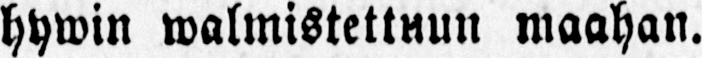hywin walmistettuun maahan.
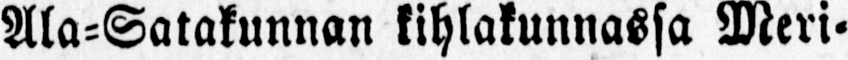Ala-Satakunnan kihlakunnassa Meri-
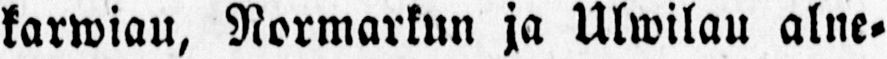karwiau, Normarkun ja Ulwilau alne-
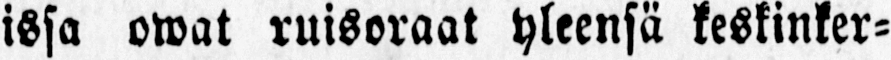issa owat ruisoraat yleensä keskinker-
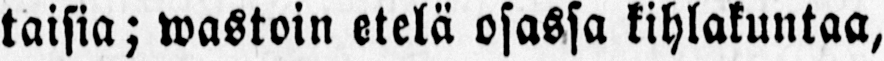taisia; wastoin etelä osassa kihlakuntaa,
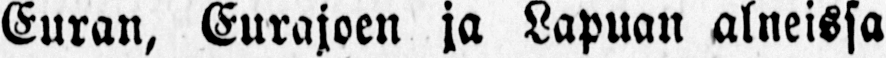Euran, Eurajoen ja Lapuan alueissa
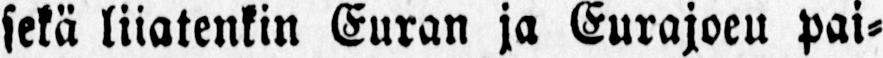sekä liiatenkin Euran ja Eurajoen pai-
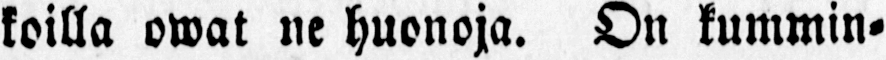koilla owat ne huonoja. On kummin-
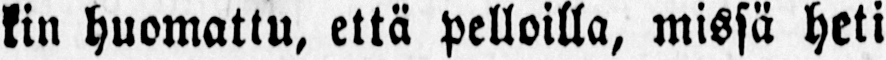kin huomattu, että pelloilla, missä heti
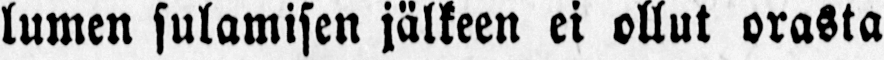lumen sulamisen jälkeen ei ollut orasta
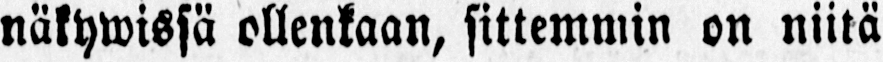näkywissä ollenkaan, sittemmin on niitä
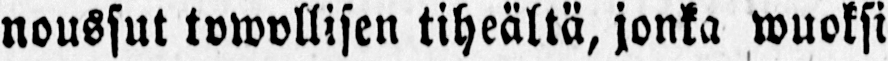noussut tawallisen tiheällä, jonka wuoksi
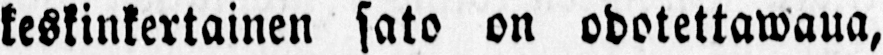keskinkertainen sato on odotettawaua,
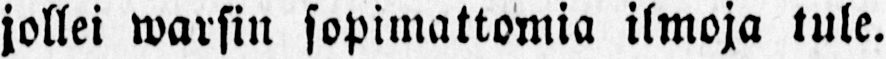jollei warsin sopimattomia ilmoja tule.
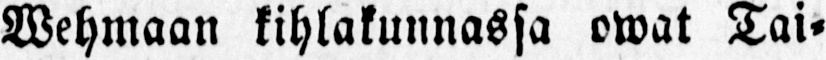Wehmaan kihlakunnassa owat Tai-
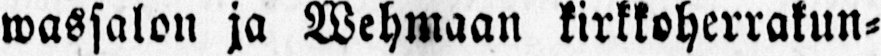wassalon ja Wehmaan kirkkoherrakun-
